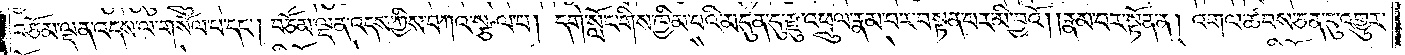བཅོམ་ལྡན་འདས་ལ་གསོལ་པ་དང༌། བཅོམ་ལྡན་འདས་ཀྱིས་བཀའ་སྩལ་པ། དགེ་སློང་གིས་ཁྱིམ་པའི་མདུན་དུ་རྫུ་འཕྲུལ་རྣམ་པར་བསྟན་པར་མི་བྱའོ། །རྣམ་པར་སྟོན་ན། འགལ་ཚབས་ཅན་དུ་འགྱུར་
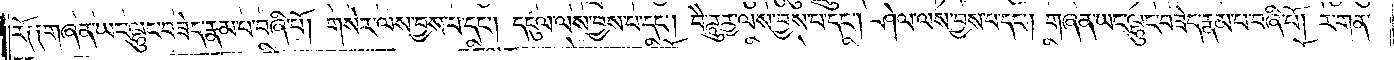རོ༑ ༑གཞན་ཡང་ལྷུང་བཟེད་རྣམ་པ་བཞི་པོ། གསེར་ལས་བྱས་པ་དང༌། དངུལ་ལས་བྱས་པ་དང༌། བཻ་ཌཱུཪྻ་ལས་བྱས་པ་དང༌། ཤེལ་ལས་བྱས་པ་དང༌། གཞན་ཡང་ལྷུང་བཟེད་རྣམ་པ་བཞི་པོ། ར་གན་
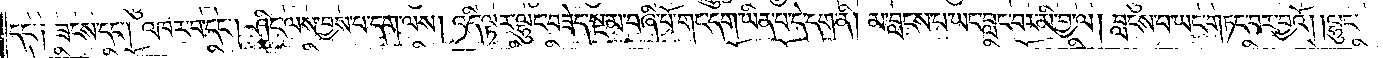དང་༑ ཟངས་དང༌། འཁར་བ་དང༌། ཤིང་ལས་བྱས་པ་དག་ལས། འདི་ལྟར་ལྷུང་བཟེད་སྔ་མ་བཞི་པོ་གང་དག་ཡིན་པ་དེ་དག་ནི། མ་བླངས་པ་ཡང་བླང་བར་མི་བྱ་ལ། བླངས་པ་ཡང་གཏང་བར་བྱའོ། །ལྷུང་
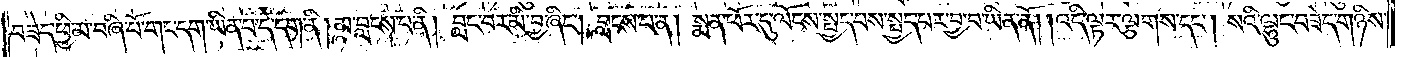བཟེད་ཕྱི་མ་བཞི་པོ་གང་དག་ཡིན་པ་དེ་དག་ནི། མ་བླངས་པ་ནི། བླང་བར་མི་བྱ་ཞིང༌། བླངས་པ་ན། སྨན་ཕོར་དུ་ལོངས་སྤྱད་པས་སྤྱད་པར་བྱ་བ་ཡིན་ནོ། །འདི་ལྟར་ལྕགས་དང༌། སའི་ལྷུང་བཟེད་གཉིས་
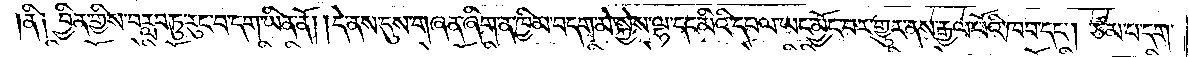ནི། བྱིན་གྱིས་བརླབ་ཏུ་རུང་བ་དག་ཡིན་ནོ། །དེ་ནས་དུས་གཞན་ཞིག་ན་ཁྱིམ་བདག་མེ་སྐྱེས་ལྷ་དང་མིའི་དཔལ་ཡང་མྱོང་བར་གྱུར་ནས་རྒྱལ་པོའི་ཁབ་དང༌། ཙམ་པ་དག་
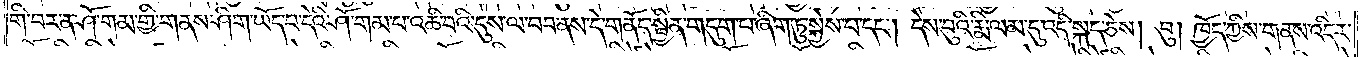གི་བར་ན་ཤོ་གམ་གྱི་གནས་ཤིག་ཡོད་པ་དེའི་ཤོ་གམ་པ་འཆི་བའི་དུས་ལ་བབ་ནས་དེ་གནོད་སྦྱིན་གདུག་པ་ཞིག་ཏུ་སྐྱེས་པ་དང༌། དེས་བུའི་རྨི་ལམ་དུ་འདི་སྐད་ཅེས། བུ། ཁྱོད་ཀྱིས་གནས་འདིར་
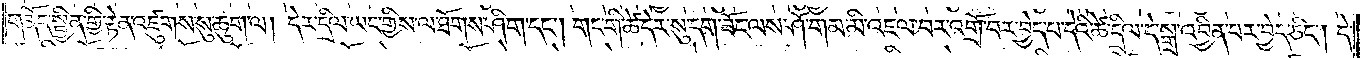གནོད་སྦྱིན་གྱི་རྟེན་འཛུགས་སུ་ཆུག་ལ། དེར་དྲིལ་ཡང་གྱིས་ལ་ཐོགས་ཤིག་དང༌། གང་གི་ཚེ་དེར་སུ་དག་ཟོང་ལས་ཤོ་གམ་མི་འཇལ་བར་འགྲོ་བར་བྱེད་པ་དེའི་ཚེ་དྲིལ་དེ་སྒྲ་འབྱིན་པར་བྱེད་ཅིང༌། དེ་
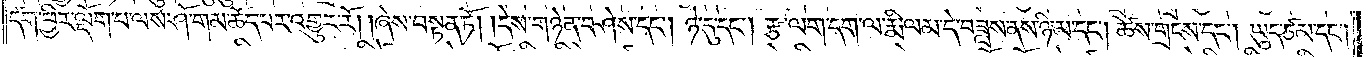དག་ཕྱིར་ལྡོག་པ་ལས་ཤོ་གམ་ཆོད་པར་འགྱུར་རོ། །ཞེས་བསྟན་ཏོ། །དེས་གཉེན་བཤེས་དང༌། ཉེ་དུ་དང༌། རྩ་ལག་དག་ལ་རྨི་ལམ་དེ་བཟླས་ནས་ཉི་མ་དང༌། ཚེས་གྲངས་དང༌། ཡུད་ཙམ་དང༌།
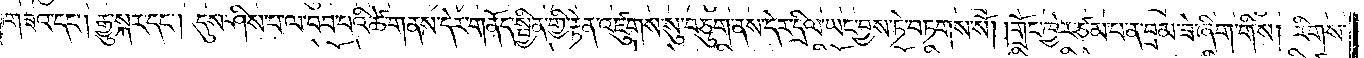གཟའ་དང༌། རྒྱུ་སྐར་དང༌། དུས་ཤིས་པ་ལ་བབ་པའི་ཚེ་གནས་དེར་གནོད་སྦྱིན་གྱི་རྟེན་འཛུགས་སུ་བཅུག་ནས་དེར་དྲིལ་ཡང་བྱས་ཏེ་བཏགས་སོ། །གྲོང་ཁྱེར་ཙམ་པ་ན་བྲམ་ཟེ་ཞིག་གིས། རིགས་
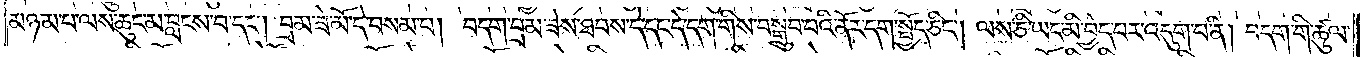མཉམ་པ་ལས་ཆུང་མ་བླངས་བ་དང༌། བྲམ་ཟེ་མོ་དེ་བསམ་པ། བདག་བྲམ་ཟེས་ཐབས་དེ་དང་དེ་དག་གིས་བསྒྲུབ་པའི་ནོར་དག་སྤྱོད་ཅིང༌། ལས་ཅི་ཡང་མི་བྱེད་པར་འདུག་པ་ནི། བདག་གི་ཚུལ་
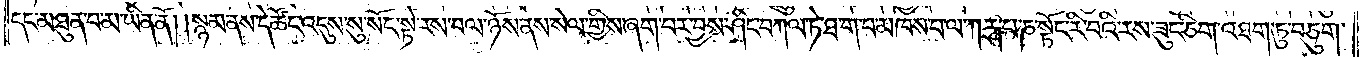དང་མཐུན་པ་མ་ཡིན་ནོ། །སྙམ་ནས་དེ་ཚོང་འདུས་སུ་སོང་སྟེ་རས་བལ་ཉོས་ནས་སེལ་གྱིས་ཞག་པར་བྱས་ཤིང་བཀལ་ཏེ་ཐ་ག་པ་མཁས་པ་ལ་ཀཪྴ་པ་ཎ་སྟོང་རི་བའི་རས་ཟུང་ཅིག་འཐག་ཏུ་བཅུག་
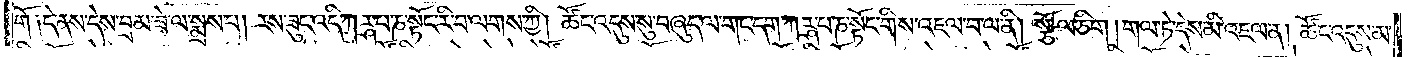གོ །དེ་ནས་དེས་བྲམ་ཟེ་ལ་སྨྲས་པ། རས་ཟུང་འདི་ཀཪྴ་པ་ཎ་སྟོང་རི་བ་ལགས་ཀྱི། ཚོང་འདུས་སུ་བཞུད་ལ་གང་དག་ཀཪྴ་པ་ཎ་སྟོང་གིས་འཇལ་བ་ལ་ནི། སྩོལ་ཅིག །གལ་ཏེ་དེས་མི་འཇལ་ན། ཚོང་འདུས་མ་
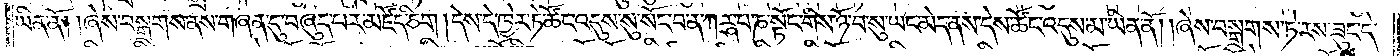ཡིན་ནོ། །ཞེས་བསྒྲགས་ནས་གཞན་དུ་བཞུད་པར་མཛོད་ཅིག །དེས་དེ་ཁྱེར་ཏེ་ཚོང་འདུས་སུ་སོང་བ་ན་ཀཪྴ་པ་ཎ་སྟོང་གིས་ཉོ་བ་སུ་ཡང་མེད་ནས་དེས་ཚོང་འདུས་མ་ཡིན་ནོ། །ཞེས་བསྒྲགས་ཏེ་རས་ཟུང་དེ་
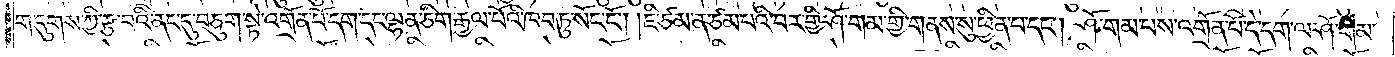གདུགས་ཀྱི་རྩ་བའི་ནང་དུ་བཅུག་སྟེ་འགྲོན་པོ་དག་དང་ལྷན་ཅིག་རྒྱལ་པོའི་ཁབ་ཏུ་སོང་ངོ༌། །ཇི་ཙམ་ན་ཙམ་པའི་བར་གྱི་ཤོ་གམ་གྱི་གནས་སུ་ཕྱིན་པ་དང༌། ཤོ་གམ་པས་འགྲོན་པོ་དེ་དག་ལ་ཤོ་གམ་
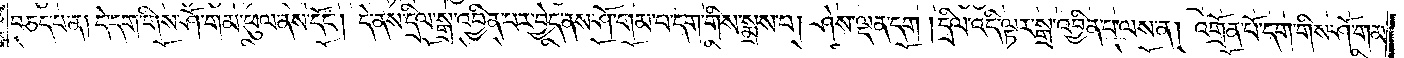བཅད་པ་ན། དེ་དག་གིས་ཤོ་གམ་ཕུལ་ནས་དོང༌། དེ་ནས་དྲིལ་སྒྲ་འབྱིན་པར་བྱེད་ནས་ཤོ་གམ་པ་དག་གིས་སྨྲས་པ། ཤེས་ལྡན་དག །དྲིལ་འདི་ལྟར་སྒྲ་འབྱིན་པ་ལས་ན། འགྲོན་པོ་དག་གིས་ཤོ་གམ་
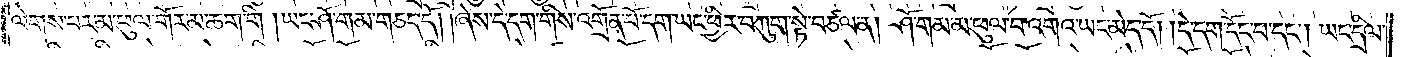ལེགས་པར་མ་ཕུལ་གོར་མ་ཆག་གི །ཡང་ཤོ་གམ་གཅད་དོ། །ཞེས་དེ་དག་གིས་འགྲོན་པོ་དག་ཡང་ཕྱིར་བཀུག་སྟེ་བཙལ་ན། ཤོ་གམ་མ་ཕུལ་བ་འགའ་ཡང་མེད་དོ། །དེ་དག་དང་པ་དང༌། ཡང་དྲིལ་
